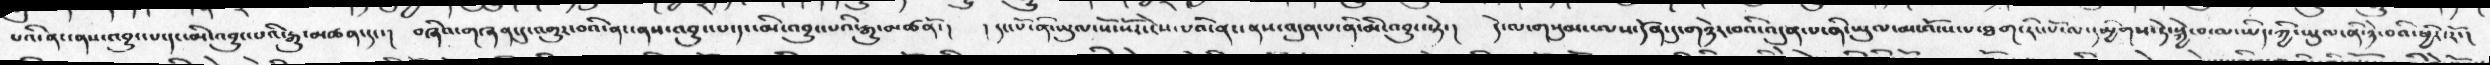པའི་ནང་ནས་འབྱུང་པ་དང་མི་འབྱུང་པའི་རྒྱུ་མཚན་དང་།  བཞིའ་གཞན་དུ་འགྱུར་བའི་ནང་ནས་འབྱུང་པ་དང་མི་འབྱུང་པའི་རྒྱུ་མཚནོ་།   ། དང་པོ་ནི་ཡུལ་སོ་སོར་ངེས་པའི་ནང་ནས་འདུན་པ་ནི་མི་འབྱུང་སྟེ་།  དེ་ལ་གསུམ་ལས་དོན་དུ་གཉེར་བའི་འདུན་པ་ནི་ཡུལ་མ་འོངས་པ་ཐག་རིང་པོ་ལ་དམྱིགས་ཏེ་སྐྱེ་བ་ལ་ཡིད་ཀྱི་ཡུལ་ནི་ཉེ་བའི་ཕྱིར་རོ་།
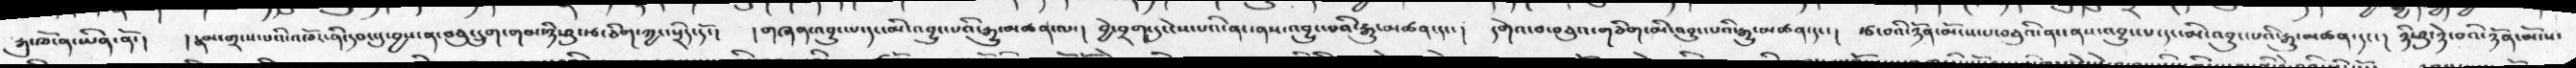རྒུ་ཁོ་ན་ཡིན་ནོ་།  །རྣམ་གྲངས་པའི་འཁོར་ནི་དབང་དུ་བྱས་ན་བཅུ་དྲུག་གམ་ཉི་ཤུ་རྩ་ཅིག་ཀྱང་སྲིད་དོ་།   །གཞན་འབྱུང་པ་དང་མི་འབྱུང་པའི་རྒྱུ་མཚན་ལ་།  བྱེ་བྲག་དུ་ངེས་པའི་ནང་ནས་འབྱུང་བའི་རྒྱུ་མཚན་དང་།  དགེའ་བ་བཅུའ་གཅིག་མི་འབྱུང་པའི་རྒྱུ་མཚན་དང་། རྩ་བའི་ཉོན་མོངས་པ་བཅུའི་ནང་ནས་འབྱུང་པ་དང་མི་འབྱུང་པའི་རྒྱུ་མཚན་དང་།  ཉི་ཤུ་ཉེ་བའི་ཉོན་མོངས་
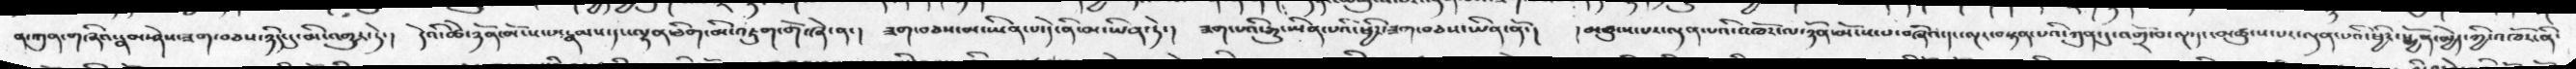ན་ཀུན་གཞིའ་རྣམ་ཤེས་ཟག་བཅས་ཉིད་དུ་མི་འགྱུར་ཏེ་།  དེའི་ཚེ་ཉོན་མོངས་པ་རྣམས་དང་ལྷན་ཅིག་མི་འཇུག་གོ་ཞེ་ན་།  ཟག་བཅས་མ་ཡིན་པ་དེ་ནི་མ་ཡིན་ཏེ་།  ཟག་པའི་རྒྱུ་ཡིན་པའི་ཕྱིར་ཟག་བཅས་ཡིན་ནོ་།  །མཚུངས་པར་ལྡན་པའི་འཁོར་ལ་ཉོན་མོངས་པ་བཞིའ་དང་ལྔར་བསྟན་པའི་ཀུན་དུ་འགྲོ་བ་ལྔ་དང་མཚུངས་པར་ལྡན་པའི་ཕྱིར་སྨྱོན་མྱེད་གྱི་འཁོར་ནི་
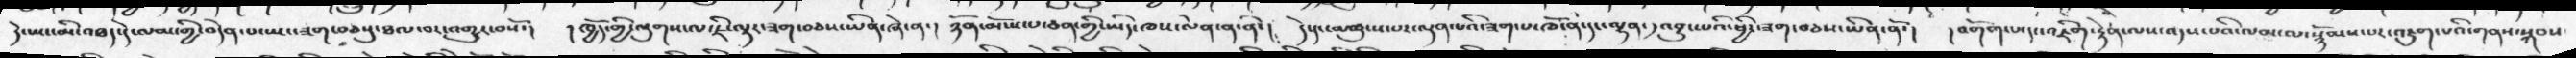དེ་ཡང་མི་འཐད་དེ་ལམ་གྱི་བདེན་པ་ཡང་ཟག་བཅསུ་ཐལ་བར་འགྱུར་བསོ་།  །ཁྱོད་ཀྱི་ལུགས་ལ་ཇི་ལྟར་ཟག་བཅས་ཡིན་ཞེ་ན་།  ཉོན་མོངས་པ་ཅན་གྱི་ཡིད་ཁས་ལེན་ན་ནི་།  དེ་དང་མཚུངས་པར་ལྡན་པའི་ཟག་པ་ཁོ་ན་དང་ལྷན་དའབྱུང་པའི་ཕྱིར་ཟག་བཅས་ཡིན་ནོ་།  །འགོག་པ་དང་འཇིག་རྟེན་ལས་འདས་པའི་ལམ་ལ་སྙོམས་པར་འཇུག་པའི་གནས་སྐབས་
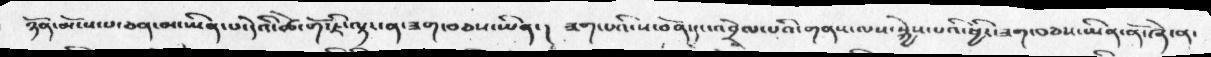ཉོན་མོངས་པ་ཅན་མ་ཡིན་པ་དེའི་ཚེ་གོ་ཇི་ལྟར་ན་ཟག་བཅས་ཡིན་།  ཟག་པའི་ས་བོན་དང་འབྲེལ་པའི་གནས་ལས་སྐྱེས་པའི་ཕྱིར་ཟག་བཅས་ཡིན་ནོ་ཞེ་ན་
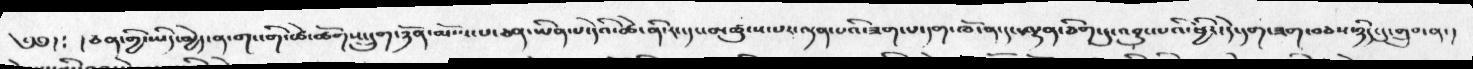༄༅། ༴ ། ཅན་གྱི་ཡིད་མྱེད་ན་གང་གི་ཚེ་ཚོགས་དྲུག་ཉོན་མོངས་པ་ཅན་ཡིན་པ་དེའི་ཚེ་ནི་རང་དང་མཚུངས་པར་ལྡན་པའི་ཟག་པ་དག་ཁོ་ན་དང་ལྷན་ཅིག་དུ་འབྱུང་པའི་ཕྱིར་དེ་དག་ཟག་བཅས་ཉིད་དུ་གྲུབ་ན་།
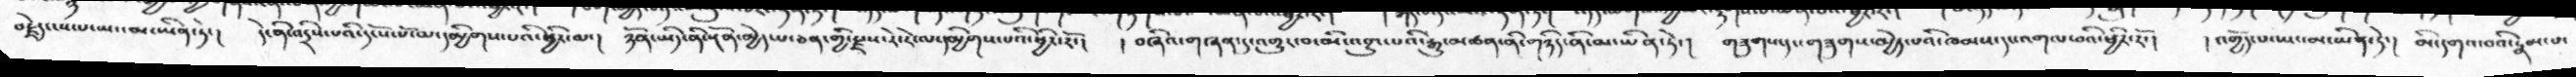བརྗེད་ངས་པ་ཡང་མ་ཡིན་ཏེ་།  དེ་ནི་འདྲིས་པའི་དངོས་པོ་ལ་དམྱིགས་པའི་ཕྱིར་ལ་།   ཉོན་ཡིད་ནི་སྔོན་མྱེད་པ་ཅན་གྱི་རྫས་རེ་རེ་ལ་དམྱིགས་པའི་ཕྱིར་རོ་།  ། བཞིའ་གཞན་དུ་འགྱུར་བ་མི་འབྱུང་པའི་རྒྱུ་མཚན་ནི་གཉིད་ནི་མ་ཡིན་ཏེ་།  གཟུགས་དང་གཟུགས་མྱེད་པའི་ཁམས་དང་འགལ་བའི་ཕྱིར་རོ་།   ། འགྱོད་པ་ཡང་མ་ཡིན་ཏེ་།  མི་དགའ་བའི་རྣམ་པ་
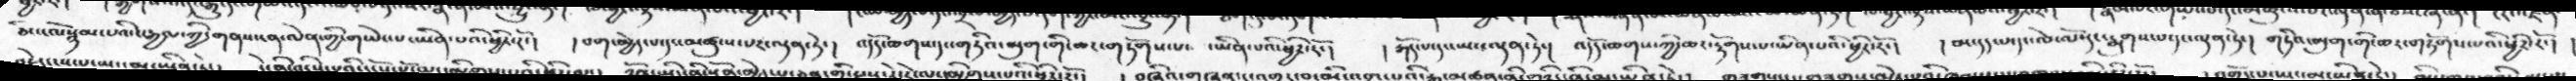ཅིང་ངོའ་སྙམ་པའི་ང་རྒྱལ་ཀྱི་གནས་ངན་ལེན་གྱི་གཡེང་པ་ཡིན་པའི་ཕྱིར་རོ་།  དཔག་མྱེད་པ་དང་མཚུངས་པར་ལྡན་ཏེ་།   འདོད་ཆགས་དང་གཏིའ་མུག་གི་ཆར་གཏོགས་པ་ ཡིན་པའི་ཕྱིར་རོ་།  །རྒོད་པ་དང་ཡང་ལྡན་ཏེ་།   འདོད་ཆགས་ཀྱི་ཆར་རྟོགས་པ་ཡིན་པའི་ཕྱིར་རོ་།  །མ་དད་པ་དང་ལེ་ལོ་དང་རྨུགས་པ་དང་ལྡན་ཏེ་།  གཏིའ་མུག་གི་ཆར་གཏོགས་པའི་ཕྱིར་རོ་།
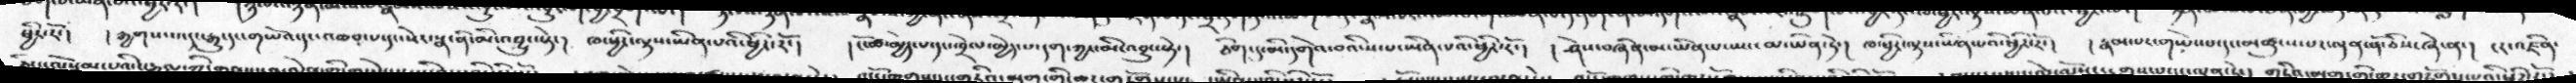ཕྱིར་རོ་།  །རྒྱགས་པ་དང་རྒྱུ་དང་གཡོའ་དང་འཆབ་པ་དང་སེར་སྣ་ནི་མི་འབྱུང་སྟེ་།  ཁ་ཕྱིར་ལྟས་ཡིན་པའི་ཕྱིར་རོ་།  །ངོ་ཚ་མྱེད་པ་དང་ཁྲེལ་མྱེད་་པ་དག་ཀྱང་མི་འབྱུང་སྟེ་།  ཅིག་དུ་མི་དགེའ་བའི་ས་པ་ཡིན་པའི་ཕྱིར་རོ་།  །ཤེས་བཞིན་མ་ཡིན་པ་ཡང་མ་ཡིན་ཏེ་།  ཁ་ཕྱིར་ལྟས་ཡིན་པའི་ཕྱིར་རོ་།  །རྣམ་པར་གཡེང་པ་དང་མཚུངས་པར་ལྡན་ནོ་ཅིས་ཞེ་ན་།  ངར་འཛིན་
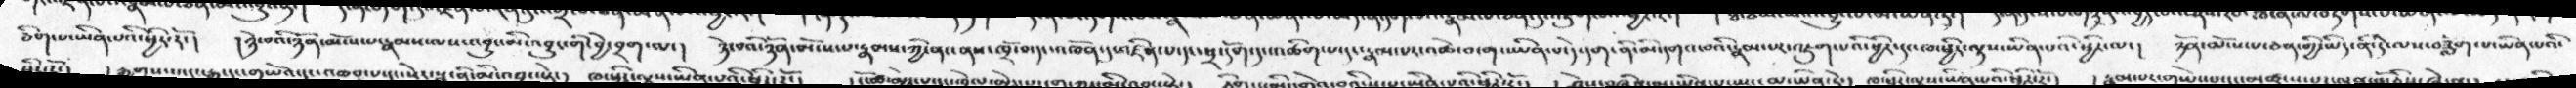ཅིག་པ་ཡིན་པའི་ཕྱིར་རོ་།  །ཉེ་བའི་ཉོན་མོངས་པ་རྣམས་ལས་འབྱུང་མིའབྱུང་གི་བྱེ་བྲག་ལ་།  ཉེ་བའི་ཉོན་མོངས་པ་རྣམས་ཀྱི་ནང་ནས་ཁྲོ་བ་དང་འཁོན་དུ་འཛིན་པ་དང་ཕྲ་དོག་དང་འཚིག་པ་དང་རྣམ་པར་འཚེ་བ་གང་ཡིན་པ་དེ་དག་ནི་མི་དགའ་བའི་རྣམ་པར་འཇུག་པའི་ཕྱིར་དང་ཁ་ཕྱིར་ལྟས་ཡིན་པའི་་ཕྱིར་ལ་།  ཉོན་མོངས་པ་ཅན་གྱི་ཡིད་ནི་དེ་ལས་བཟློག་པ་ཡིན་པའི་
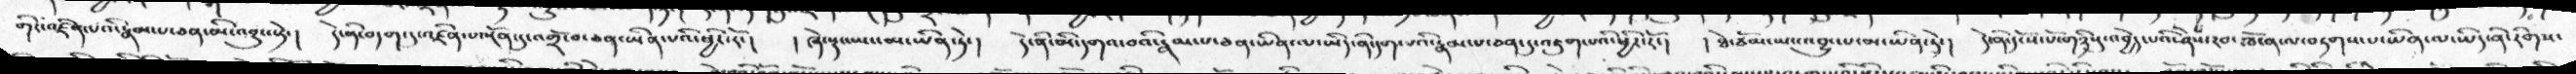གོང་འཛིན་རྣམ་པ་ཅན་མི་འབྱུང་ཏེ་།  དེ་ནི་བདག་དུ་འཛིན་པ་སྔོན་དུ་འགྲོ་བ་ཅན་ཡིན་པའི་ཕྱིར་རོ་།  ། ཞེ་སྡང་ཡང་མ་ཡིན་ཏེ་།  དེ་ནི་མི་དགའ་བའི་རྣམ་པ་ཅན་ཡིན་ལ་ཡིད་ནི་དག་པའི་རྣམ་པ་ཅན་དུ་འཇུག་པའི་ཕྱིར་རོ་།  །ཐེ་ཙོམ་ཡང་འབྱུང་པ་མ་ཡིན་ཏེ་།  དེ་ནི་དངོས་པོ་གཉིསུ་འབྱེད་པའི་ཤེས་རབ་ཁོ་ན་ལ་བཏགས་པ་ཡིན་ལ་ཡིད་ནི་རིགས་
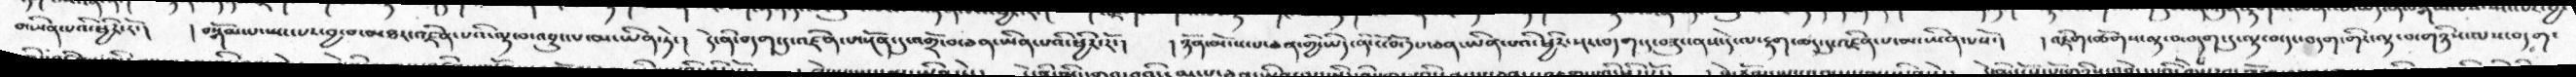མ་ཡིན་པའི་ཕྱིར་རོ་།   །བསྒོམ་པ་སྤང་པར་བྱ་བ་མཐར་འཛིན་པའི་ལྟ་བ་འབྱུང་པ་མ་ཡིན་ཏེ་།  དེ་ནི་བདག་དུ་འཛིན་པ་མངོན་དུ་འགྲོ་བ་ཅན་ཡིན་པའི་ཕྱིར་རོ་།  །ཉོན་མོངས་པ་ཅན་གྱི་ཡིད་ནི་ངོ་བོ་༡པ་ཅན་ཡིན་པའི་ཕྱིར་སྔར་བདག་དུ་བཟུང་ནས་དེ་ལ་རྟག་ཆད་དུ་འཛིན་པ་མ་ཡིན་པསོ་།  །འཇིག་ཚོགས་ལྟ་བ་བདག་དུ་ལྟ་བ་དང་བདག་གིར་ལྟ་བ་གཉིས་ལས་བདག་
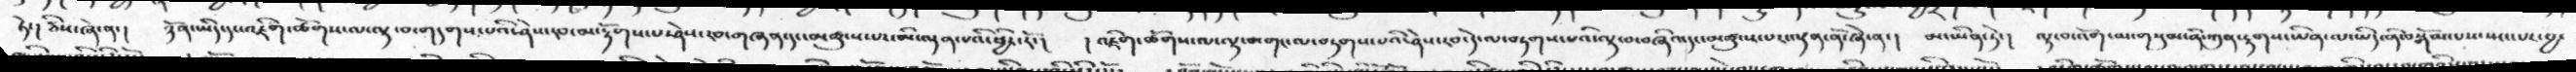ཏེ་།   ཅིས་ཞེ་ན་།  ཉོན་ཡིད་དང་འཇིག་ཚོགས་ལ་ལྟ་བ་གདགས་པའི་ཤེས་རབ་མ་རྟོགས་པ་ཤེས་རབ་གཞན་དང་མཚུངས་པར་མི་ལྡན་པའི་ཕྱིར་རོ་།  །འཇིག་ཚོགས་ལ་ལྟ་བ་གང་ལ་བཏགས་པའི་ཤེས་རབ་དེ་ལ་བཏགས་པའི་ལྟ་བ་བཞིའ་དང་མཚུངས་པར་ལྡན་ནོ་ཞེ་ན་།  མ་ཡིན་ཏེ་།  ལྟ་བ་འོག་མ་གསུམ་ནི་ཀུན་རྟགས་ཡིན་ལ་ཡིད་ནི་བསྒོམ་པས་སྤང་པར་བྱ་
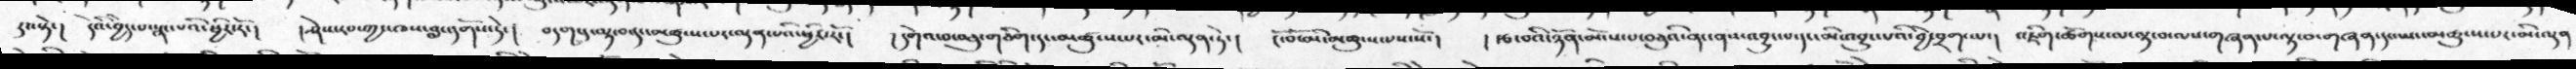དང་སྟེ་།   དེའི་བྱེད་པ་སྣང་པའི་ཕྱིར་རོ་།  །ཤེས་རབ་ཀྱང་ཁས་བླང་དགོས་ཏེ་།   བདག་དུ་ལྟ་བ་དང་མཚུངས་པར་ལྡན་པའི་ཕྱིར་རོ་།  །དགེའ་བ་བཅུ་གཅིག་དང་མཚུངས་པར་མི་ལྡན་ཏེ་།  ངོ་བ་ོམི་མཚུངས་པས་སོ་།  །རྩ་བའི་ཉོན་མོངས་པ་བཅུའི་ནང་ནས་འབྱུང་པ་དང་མི་འབྱུང་པའི་བྱེ་བྲག་ལ་།  འཇིག་ཚོགས་ལ་ལྟ་བ་ལས་གཞན་པ་ལྟ་བ་གཞན་དང་ཡང་མཚུངས་པར་མི་ལྡན
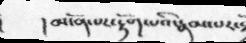།མངོན་པར་རྟོག་པའི་རྣམ་པར་
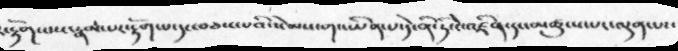་རྟོག་པས་རྣམ་པར་རྟོག་པ་དང་བཅས་པའི་སེམས་གང་ཡིན་པ་དེ་ནི་ཏི་ངེ་འཛིན་དང་མཚུངས་པར་ལྡན་པར་
